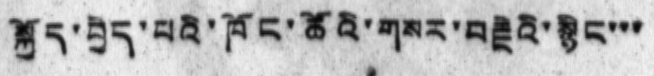སྐྱོད་བྱེད་པའི་ཁོང་ཚོའི་གསར་བརྗེའི་སྙིང་་་
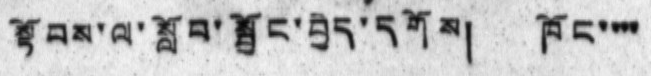སྟོབས་ལ་སློབ་སྦྱོང་བྱེད་དགོས། ཁོང་་་་
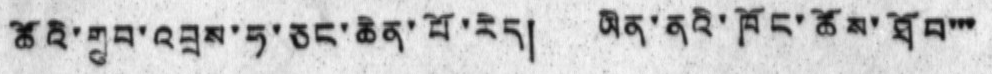ཚོའི་གྲུབ་འབྲས་ཧ་ཅང་ཆེན་པོ་རེད། ཡིན་ནའི་ཁོང་ཚོའི་ཐོབ་་་
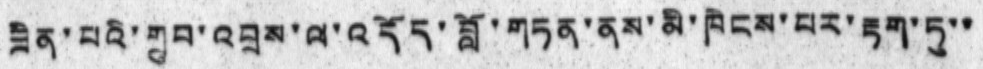ཟིན་པའི་གྲུབ་འབྲས་ལ་འདོད་བློ་གཏན་ནས་མི་ཁེངས་པར་རྟག་ཏུ་་
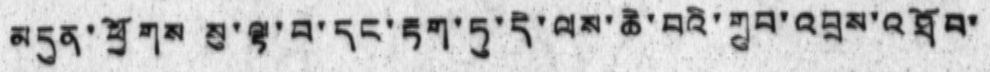མདུན་ཕྱོགས སུ་ལྟ་བ་དང་རྟག་ཏུ་དེ་ལས་ཆེ་བའི་གྲུབ་འབྲས་འཐོབ་
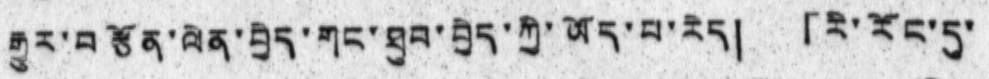རྒྱུར་བརྩོན་ལེན་བྱེད་གང་ཐུབ་བྱེད་ཀྱི་ཡོད་པ་རེད། 「རི་རོང་དུ་
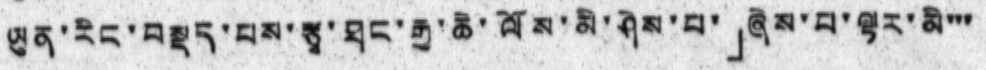ཡུན་རིང་བསྡ་པས་རྩྭ་ཐང་རྒྱ་ཆེ་ལོས་མི་ཤེས་པ་」ཞེས་པ་ལྟར་མི་་་
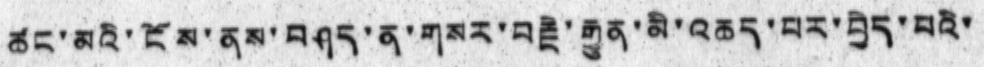ཚང་མའི་ངོས་ནས་བཤད་ན་གསར་བརྗེ་རྒྱུན་མི་འཆད་པར་བྱེད་པའི་
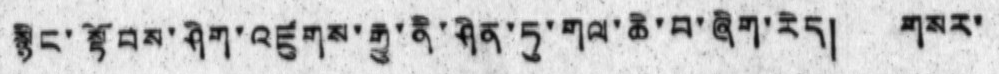སྙིང་སྟོབས་ཤིག་འཛུགས་རྒྱུ་ནི་ཤིན་ཏུ་གལ་ཆེ་བ་ཞིག་རེད། གསར་
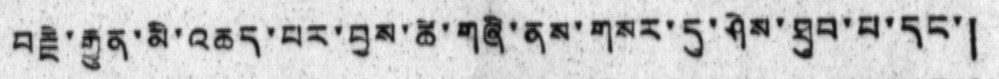བརྗེ་རྒྱུན་མི་འཆད་པར་བྱས་ཚེ་གཞི་ནས་གསར་དུ་ཤེས་ཐུབ་པ་དང་།
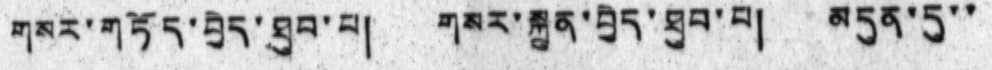གསར་གཏོད་བྱེད་ཐུབ་པ། གསར་སྐྲུན་བྱེད་ཐུབ་པ། མདུན་དུ་་
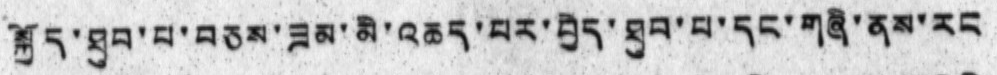སྐྱོད་ཐུབ་པ་བཅས་ཟམ་མི་འཆད་པར་བྱེད་ཐུབ་པ་དང་གཞི་ནས་རང
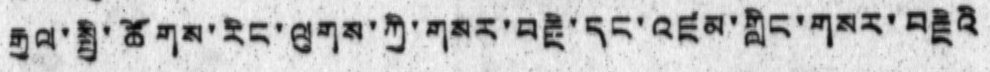རྒྱལ་སྤྱི་ཚོགས་རིང་ལུགས་ཀྱི་གསར་བརྗེ་དང་འཛམ་གླིང་གསར་བརྗེའི
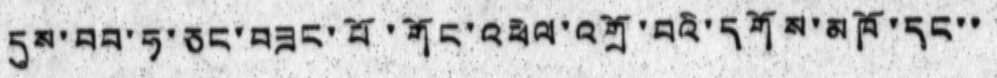དུས་བབ་ཧ་ཅང་བཟང་པོ་གོང་འཕེལ་འགྲོ་བའི་དགོས་མཁོ་དང་་
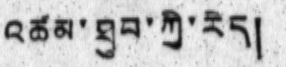འཚམ་ཐུབ་ཀྱི་རེད།
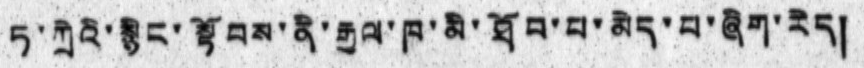ཏ་ཀྲེའི་སྙིང་སྟོབས་ནི་རྒྱལ་ཁ་མི་ཐོབ་པ་མེད་པ་ཞིག་རེད།
